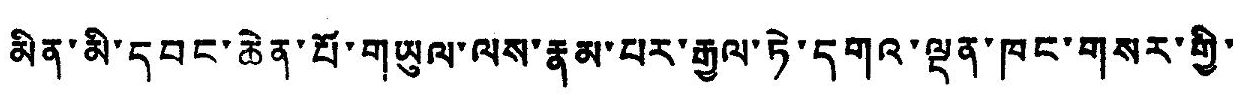མིན་མི་དབང་ཆེན་པོ་གཡུལ་ལས་རྣམ་པར་རྒྱལ་ཏེ་དགའ་ལྡན་ཁང་གསར་གྱི་
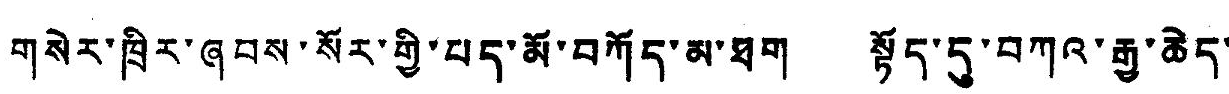གསེར་ཁྲིར་ཞབས་སོར་གྱི་པད་མོ་བཀོད་མ་ཐག སྟོད་དུ་བཀའ་རྒྱ་ཆེད་
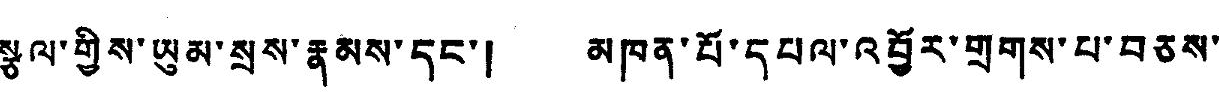སྩལ་གྱིས་ཡུམ་སྲས་རྣམས་དང་། མཁན་པོ་དཔལ་འབྱོར་གྲགས་པ་བཅས
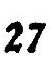27
